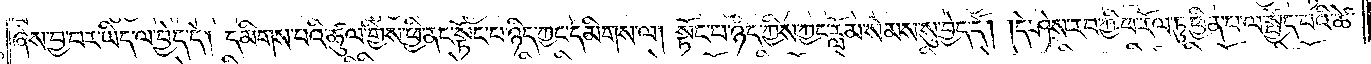ཞེས་བྱ་བར་ཡིད་ལ་བྱེད་དེ། དམིགས་པའི་ཚུལ་གྱིས་ཕྱི་ནང་སྟོང་པ་ཉིད་ཀྱང་དམིགས་ལ། སྟོང་པ་ཉིད་ཀྱིས་ཀྱང་རློམ་སེམས་སུ་བྱེད་དོ། །དེ་ཤེས་རབ་ཀྱི་ཕ་རོལ་ཏུ་ཕྱིན་པ་ལ་སྤྱོད་པའི་ཚེ་
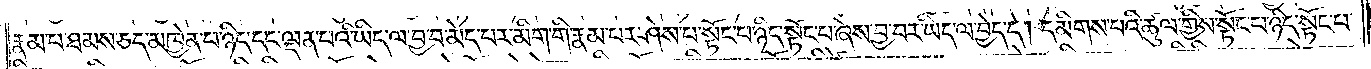རྣམ་པ་ཐམས་ཅད་མཁྱེན་པ་ཉིད་དང་ལྡན་པའི་ཡིད་ལ་བྱ་བ་མེད་པར་མིག་གི་རྣམ་པར་ཤེས་པ་སྟོང་པ་ཉིད་སྟོང་པ་ཞེས་བྱ་བར་ཡིད་ལ་བྱེད་དེ། དམིགས་པའི་ཚུལ་གྱིས་སྟོང་པ་ཉིད་སྟོང་པ་
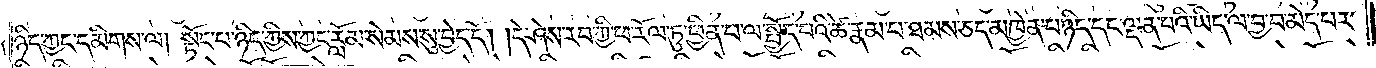ཉིད་ཀྱང་དམིགས་ལ། སྟོང་པ་ཉིད་ཀྱིས་ཀྱང་རློམ་སེམས་སུ་བྱེད་དོ། །དེ་ཤེས་རབ་ཀྱི་ཕ་རོལ་ཏུ་ཕྱིན་པ་ལ་སྤྱོད་པའི་ཚེ་རྣམ་པ་ཐམས་ཅད་མཁྱེན་པ་ཉིད་དང་ལྡན་པའི་ཡིད་ལ་བྱ་བ་མེད་པར་
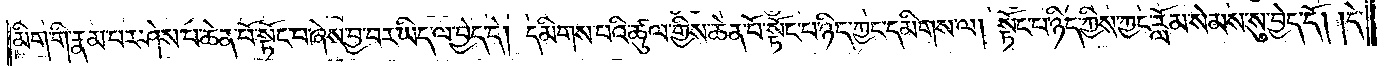མིག་གི་རྣམ་པར་ཤེས་པ་ཆེན་པོ་སྟོང་པ་ཞེས་བྱ་བར་ཡིད་ལ་བྱེད་དེ། དམིགས་པའི་ཚུལ་གྱིས་ཆེན་པོ་སྟོང་པ་ཉིད་ཀྱང་དམིགས་ལ། སྟོང་པ་ཉིད་ཀྱིས་ཀྱང་རློམ་སེམས་སུ་བྱེད་དོ། །དེ་
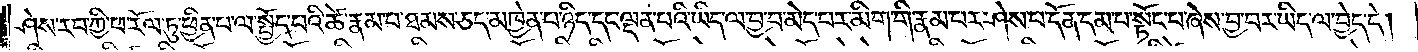ཤེས་རབ་ཀྱི་ཕ་རོལ་ཏུ་ཕྱིན་པ་ལ་སྤྱོད་པའི་ཚེ་རྣམ་པ་ཐམས་ཅད་མཁྱེན་པ་ཉིད་དང་ལྡན་པའི་ཡིད་ལ་བྱ་བ་མེད་པར་མིག་གི་རྣམ་པར་ཤེས་པ་དོན་དམ་པ་སྟོང་པ་ཞེས་བྱ་བར་ཡིད་ལ་བྱེད་དེ།
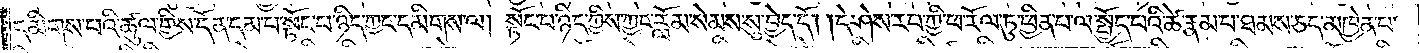དམིགས་པའི་ཚུལ་གྱིས་དོན་དམ་པ་སྟོང་པ་ཉིད་ཀྱང་དམིགས་ལ། སྟོང་པ་ཉིད་ཀྱིས་ཀྱང་རློམ་སེམས་སུ་བྱེད་དོ། །དེ་ཤེས་རབ་ཀྱི་ཕ་རོལ་ཏུ་ཕྱིན་པ་ལ་སྤྱོད་པའི་ཚེ་རྣམ་པ་ཐམས་ཅད་མཁྱེན་པ་
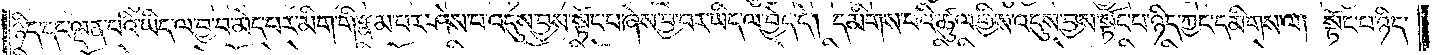ཉིད་དང་ལྡན་པའི་ཡིད་ལ་བྱ་བ་མེད་པར་མིག་གི་རྣམ་པར་ཤེས་པ་འདུས་བྱས་སྟོང་པ་ཞེས་བྱ་བར་ཡིད་ལ་བྱེད་དེ། དམིགས་པའི་ཚུལ་གྱིས་འདུས་བྱས་སྟོང་པ་ཉིད་ཀྱང་དམིགས་ལ། སྟོང་པ་ཉིད་
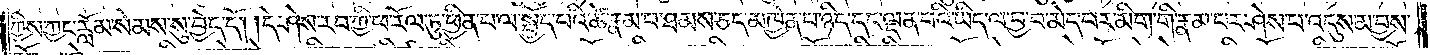ཀྱིས་ཀྱང་རློམ་སེམས་སུ་བྱེད་དོ། །དེ་ཤེས་རབ་ཀྱི་ཕ་རོལ་ཏུ་ཕྱིན་པ་ལ་སྤྱོད་པའི་ཚེ་རྣམ་པ་ཐམས་ཅད་མཁྱེན་པ་ཉིད་དང་ལྡན་པའི་ཡིད་ལ་བྱ་བ་མེད་པར་མིག་གི་རྣམ་པར་ཤེས་པ་འདུས་མ་བྱས་
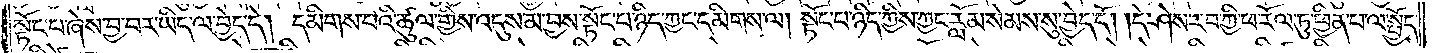སྟོང་པ་ཞེས་བྱ་བར་ཡིད་ལ་བྱེད་དེ། དམིགས་པའི་ཚུལ་གྱིས་འདུས་མ་བྱས་སྟོང་པ་ཉིད་ཀྱང་དམིགས་ལ། སྟོང་པ་ཉིད་ཀྱིས་ཀྱང་རློམ་སེམས་སུ་བྱེད་དོ། །དེ་ཤེས་རབ་ཀྱི་ཕ་རོལ་ཏུ་ཕྱིན་པ་ལ་སྤྱོད་
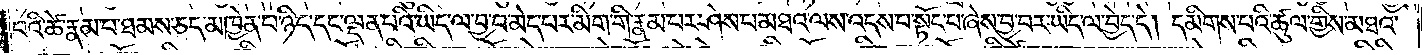པའི་ཚེ་རྣམ་པ་ཐམས་ཅད་མཁྱེན་པ་ཉིད་དང་ལྡན་པའི་ཡིད་ལ་བྱ་བ་མེད་པར་མིག་གི་རྣམ་པར་ཤེས་པ་མཐའ་ལས་འདས་པ་སྟོང་པ་ཞེས་བྱ་བར་ཡིད་ལ་བྱེད་དེ། དམིགས་པའི་ཚུལ་གྱིས་མཐའ་
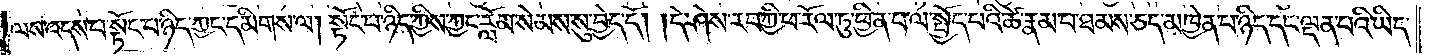ལས་འདས་པ་སྟོང་པ་ཉིད་ཀྱང་དམིགས་ལ། སྟོང་པ་ཉིད་ཀྱིས་ཀྱང་རློམ་སེམས་སུ་བྱེད་དོ། །དེ་ཤེས་རབ་ཀྱི་ཕ་རོལ་ཏུ་ཕྱིན་པ་ལ་སྤྱོད་པའི་ཚེ་རྣམ་པ་ཐམས་ཅད་མཁྱེན་པ་ཉིད་དང་ལྡན་པའི་ཡིད་
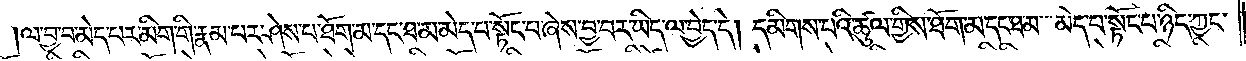ལ་བྱ་བ་མེད་པར་མིག་གི་རྣམ་པར་ཤེས་པ་ཐོག་མ་དང་ཐ་མ་མེད་པ་སྟོང་པ་ཞེས་བྱ་བར་ཡིད་ལ་བྱེད་དེ། དམིགས་པའི་ཚུལ་གྱིས་ཐོག་མ་དང་ཐ་མ་མེད་པ་སྟོང་པ་ཉིད་ཀྱང་
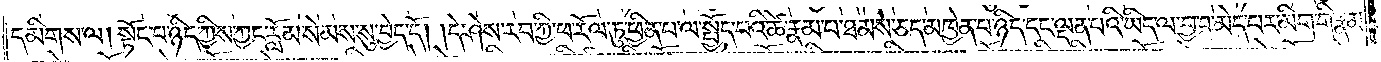དམིགས་ལ། སྟོང་པ་ཉིད་ཀྱིས་ཀྱང་རློམ་སེམས་སུ་བྱེད་དོ། །དེ་ཤེས་རབ་ཀྱི་ཕ་རོལ་ཏུ་ཕྱིན་པ་ལ་སྤྱོད་པའི་ཚེ་རྣམ་པ་ཐམས་ཅད་མཁྱེན་པ་ཉིད་དང་ལྡན་པའི་ཡིད་ལ་བྱ་བ་མེད་པར་མིག་གི་རྣམ་
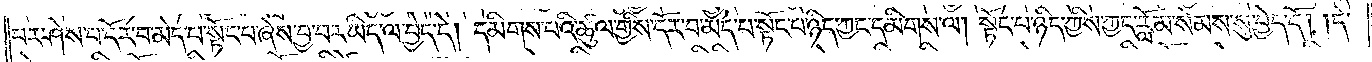པར་ཤེས་པ་དོར་བ་མེད་པ་སྟོང་པ་ཞེས་བྱ་བར་ཡིད་ལ་བྱེད་དེ། དམིགས་པའི་ཚུལ་གྱིས་དོར་བ་མེད་པ་སྟོང་པ་ཉིད་ཀྱང་དམིགས་ལ། སྟོང་པ་ཉིད་ཀྱིས་ཀྱང་རློམ་སེམས་སུ་བྱེད་དོ། །དེ་
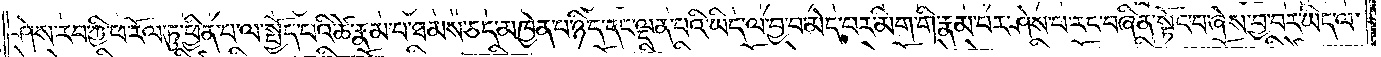ཤེས་རབ་ཀྱི་ཕ་རོལ་ཏུ་ཕྱིན་པ་ལ་སྤྱོད་པའི་ཚེ་རྣམ་པ་ཐམས་ཅད་མཁྱེན་པ་ཉིད་དང་ལྡན་པའི་ཡིད་ལ་བྱ་བ་མེད་པར་མིག་གི་རྣམ་པར་ཤེས་པ་རང་བཞིན་སྟོང་པ་ཞེས་བྱ་བར་ཡིད་ལ་
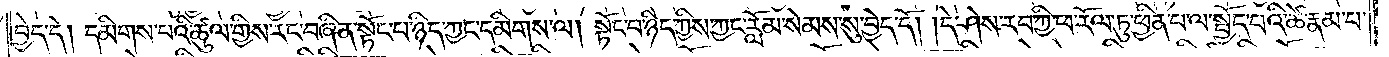བྱེད་དེ། དམིགས་པའི་ཚུལ་གྱིས་རང་བཞིན་སྟོང་པ་ཉིད་ཀྱང་དམིགས་ལ། སྟོང་པ་ཉིད་ཀྱིས་ཀྱང་རློམ་སེམས་སུ་བྱེད་དོ། །དེ་ཤེས་རབ་ཀྱི་ཕ་རོལ་ཏུ་ཕྱིན་པ་ལ་སྤྱོད་པའི་ཚེ་རྣམ་པ་
